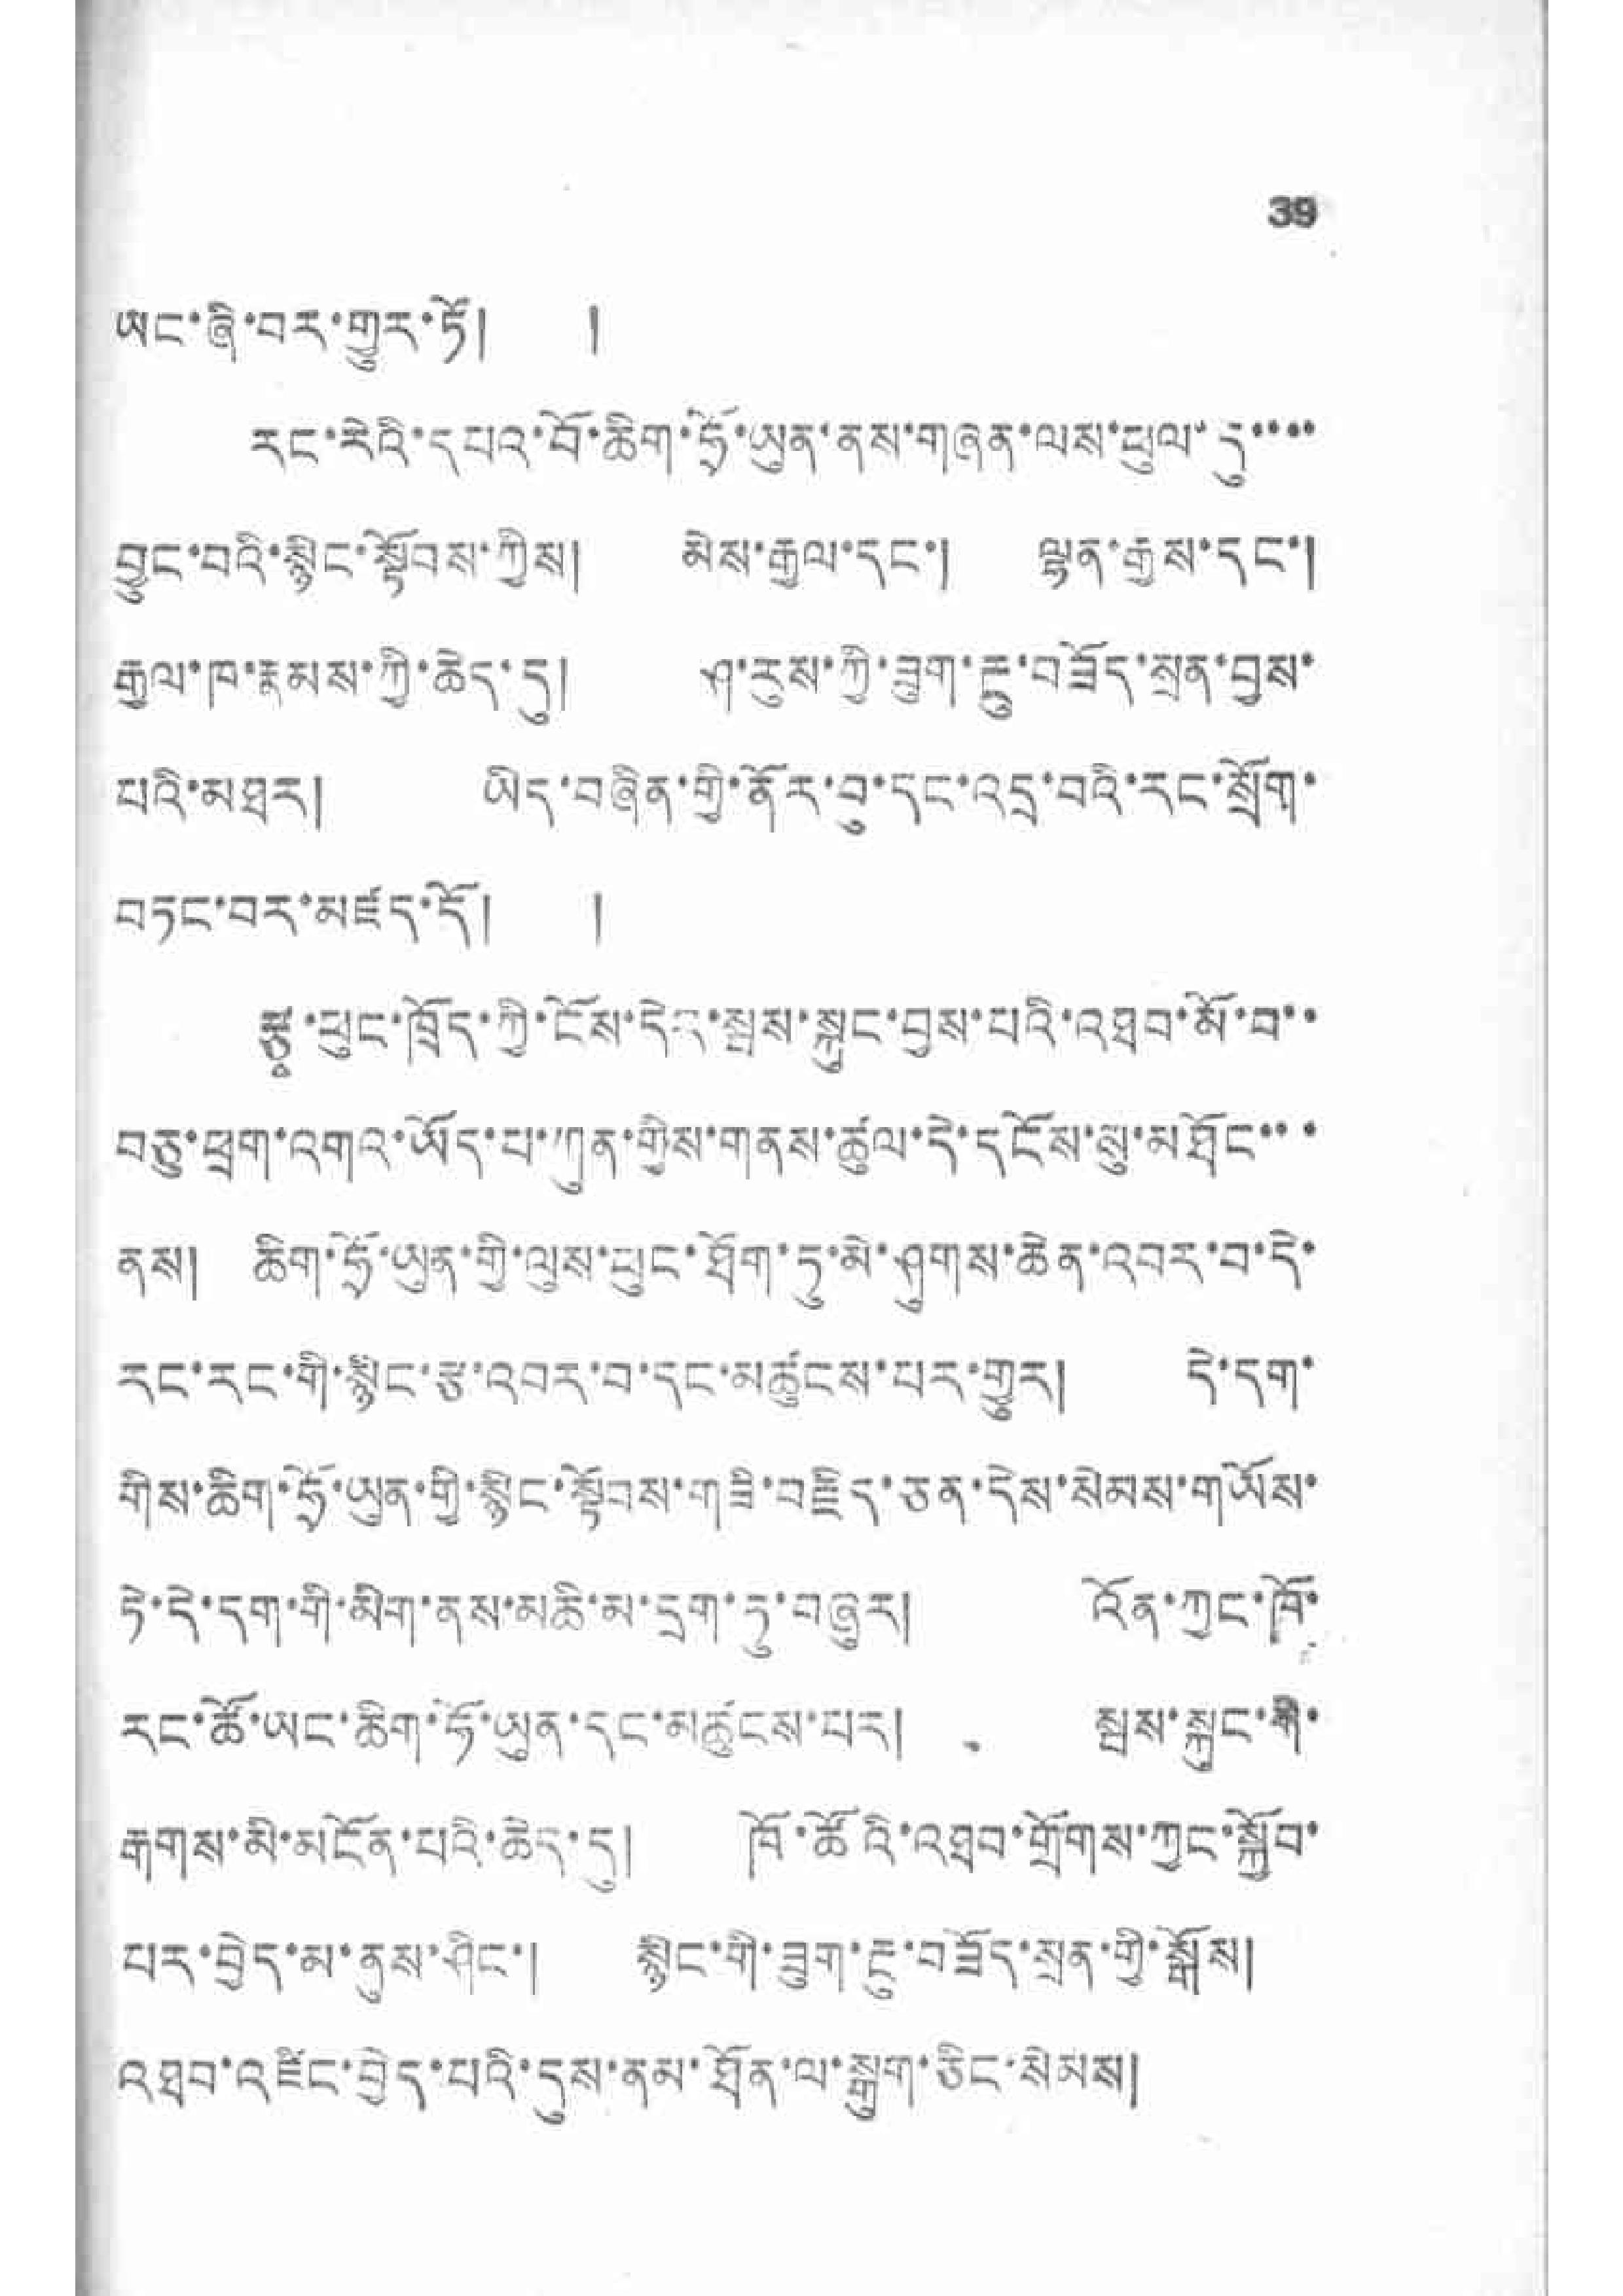39
ཡང་ཞི་བར་གྱུར་ཏོ། །
རང་རེའི་དཔའ་བོ་ཆིག་ཧྲོ་ཡུན་ནས་གཞན་ལས་ཕུལ་དུ་་་་
བྱུང་བའི་སྙིང་སྟོབས་ཀྱིས། མེས་རྒྱལ་དང་། ལྷན་རྒྱས་དང་།
རྒྱལ་ཁ་རྣམས་ཀྱི་ཆེད་དུ། ཤ་རུས་ཀྱི་ཟུག་རྔུ་བཟོད་སྲན་བྱས་
པའི་མཐར། ཡིད་བཞིན་གྱི་ནོར་བུ་དང་འདྲ་བའི་རང་སྲོག་
བཏང་བར་མཛད་དོ། །
རྩྭ་ཕུང་ཁྲོད་ཀྱི་ངོས་དེར་སྦས་སྐུང་བྱས་པའི་འཐབ་མོ་བ་་
བཅུ་ཕྲག་འགའ་ཡོད་པ་ཀུན་གྱིས་གནས་ཚུལ་དེ་དངོས་སུ་མཐོང་་་
ནས། ཆིག་ཧྲོ་ཡུན་གྱི་ལུས་ཕུང་ཐོག་ཏུ་མེ་ཤུགས་ཆེན་འབར་བ་དེ་
རང་རང་གི་སྙིང་རྩ་འབད་བ་དང་མཚུངས་པར་གྱུར། དེ་དག་
གིས་ཆིག་ཧྲོ་ཡུན་གྱི་སྙིང་སྟོགས་གཟི་བརྗིད་ཅན་དེས་སེམས་གཡོས་
ཏེ་དེ་དག་གི་མིག་ནས་མཆི་མ་དྲག་ཏུ་གཞུར། འོན་ཀྱང་ཁོ་
རང་ཚོ་ཡང་ཆིག་ཧྲོ་ཡུན་དང་མཚུངས་པར། སྦས་སྐུང་གི་
རྒགས་མི་མངོན་པའི་ཆེད་དུ། ཁོ་ཚོའི་འཐབ་གྲོགས་ཀྱང་སྐྱོབ་
པར་བྱེད་མ་ནུས་ཤིང་། སྙིང་གི་ཟུག་རྔུ་བཟོད་སྲན་གྱི་སྒོས།
འཐབ་འཛིང་བྱེད་པའི་དུས་ནམ་ཐོན་ལ་སྒུག་ཅིང་སེམས།
